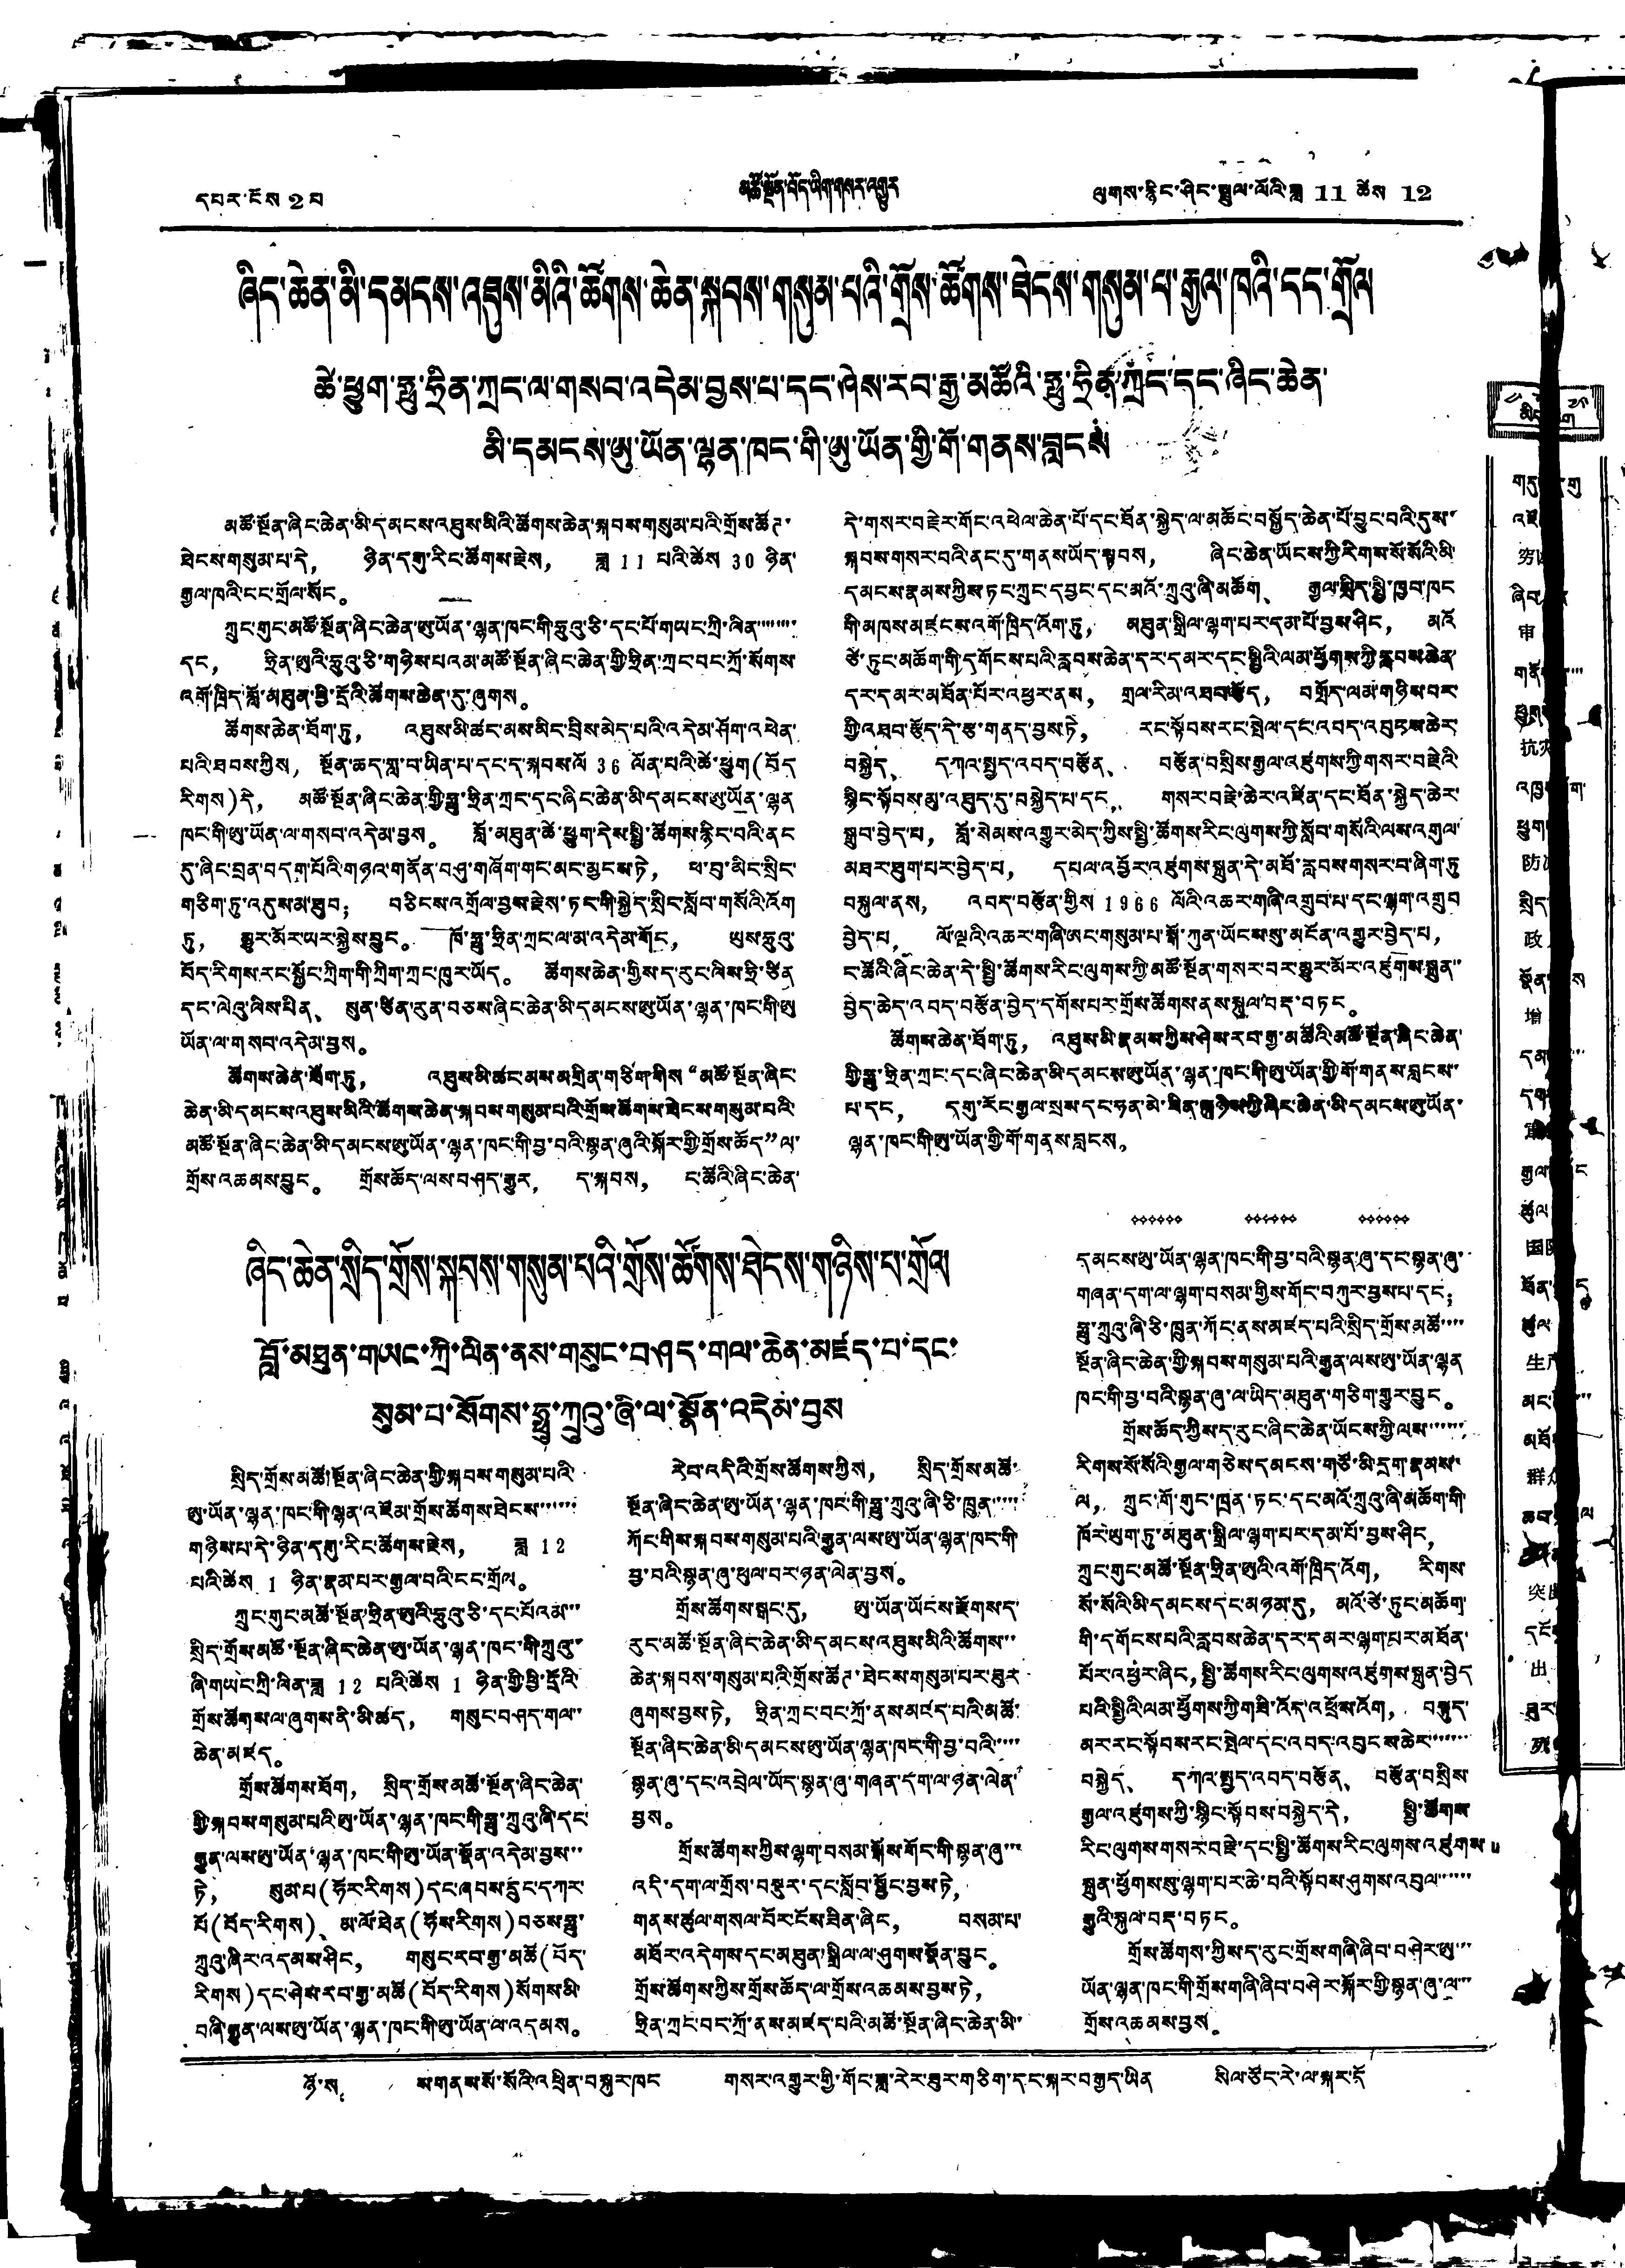དཔར་ངོས 2 པ མཚོ་སྔོན་བོད་ཡིག་གསར་འགྱུར ལུགས་རྙིང་ཤིང་སྦྲུལ་ལོའི་ཟླ 11 ཚེས 12
ཞིང་ཆེན་མི་དམངས་འཐུས་མིའི་ཚོགས་ཆེན་སྐབས་གསུམ་པའི་གྲོས་ཚོགས་ཐེངས་གསུམ་པ་རྒྱལ་ཁའི་ངང་གྲོལ
ཚེ་ཕྱུག་ཧྥུ་ཧྲིན་ཀྲང་ལ་གསབ་འདེམ་བྱས་པ་དང་ཞེས་རབ་རྒྱ་མཚོའི་ཧྥུ་ཧྲིན་ཀྲང་དང་ཞིང་ཆེན་
མི་དམངས་ཨུ་ཡོན་ལྷན་ཁང་གི་ཨུ་ཡོན་གྱི་གོ་གནས་བླངས
མཚོ་སྔོན་ཞིང་ཆེན་མི་དམངས་འཐུས་མིའི་ཚོགས་ཆེན་སྐབས་གསུམ་པའི་གྲོས་ཚོཊ་
ཐེངས་གསུམ་པ་དེ， ཉིན་དགུ་རིང་ཚོགས་རྗེས， ཟླ 11 པའི་ཚེས 30 ཉིན་
རྒྱལ་ཁའི་ངང་གྲོལ་སོང。
ཀྲུང་གུང་མཚོ་སྔོན་ཞིང་ཆེན་ཨུ་ཡོན་ལྷན་ཁང་གི་ཧྲུའུ་ཅི་དང་པོ་གཡང་ཀྲི་ལིན་་་་་་་་
དང， ཧྲིན་ཨུའི་ཧྲུའུ་ཅི་གཉིས་པའམ་མཚོ་སྔོན་ཞིང་ཆེན་གྱི་ཧྲིན་ཀྲང་བང་ཀྲོ་སོགས་
འགོ་ཁྲིད་བློ་མཐུན་ཕྱི་དྲོའི་ཚོགས་ཆེན་རུ་ཞུགས。
ཚོགས་ཆེན་ཐོག་ཏུ， འཐུས་མི་ཚང་མས་མིང་བྲིས་མེད་པའི་འདེམ་ཤོག་འཕེན་
པའི་ཐབས་ཀྱིས， སྔོན་ཆད་གླ་བ་ཡིན་པ་དང་ད་སྐབས་ལོ 36 ལོན་པའི་ཚེ་ཕྱུག （བོད
རིགས）དེ， མཚོ་སྔོན་ཞིང་ཆེན་གྱི་ཧྥུ་ཧྲིན་ཀྲང་དང་ཞིང་ཆེན་མི་དམངས་ཨུ་ཡོན་ལྷན
ཁང་གི་ཨུ་ཡོན་ལ་གསབ་འདེམ་བྱས。 བློ་མཐུན་ཚེ་ཕྱུག་དེས་སྤྱི་ཚོགས་རྙིང་བའི་ནང
དུ་ཞིང་བྲན་བདག་པོའི་གཉའ་གནོན་བཤུ་གཞོག་གང་མང་མྱངས་ཏེ， ཕ་བུ་མིང་སྲིང་
གཅིག་ཏུ་འདུས་མ་ཐུབ； བཅིངས་འགྲོལ་བྱས་རྗེས་ཏང་གི་སྐྱེད་སྲིང་སློབ་གསོའི་འོག
ཏུ， མྱུར་མོར་ཡར་སྐྱེས་བྱུང。 ཁོ་ཧྥུ་ཧྲིན་ཀྲང་ལ་མ་འདེམ་གོང， ཡུས་ཧྲུའུ་
བོད་རིགས་རང་སྐྱོང་ཀྲིག་གི་ཀྲིག་ཀྲང་ཁུར་ཡོད。 ཚོགས་ཆེན་གྱིས་ད་རུང་ལིས་ཧྲི་ཙིན
དང་ལེའུ་ལིས་པིན、 སུན་ཙིན་རུན་བཅས་ཞིང་ཆེན་མི་དམངས་ཨུ་ཡོན་ལྷན་ཁང་གི་ཨུ་
ཡོན་ལ་གསབ་འདེམ་བྱས。
ཚོགས་ཆེན་ཐོག་ཏུ， འཐུས་མི་ཚང་མས་མགྲིན་གཅིག་གིས་“མཚོ་སྔོན་ཞིང་
ཆེན་མི་དམངས་འཐུས་མིའི་ཚོགས་ཆེན་སྐབས་གསུམ་པའི་གྲོས་ཚོགས་ཐེངས་གསུམ་པའི་
མཚོ་སྔོན་ཞིང་ཆེན་མི་དམངས་ཨུ་ཡོན་ལྷན་ཁང་གི་བྱ་བའི་སྙན་ཞུའི་སྐོར་གྱི་གྲོས་ཆོད”ལ་
གྲོས་འཆམས་བྱུང。 གྲོས་ཆོད་ལས་བཤད་རྒྱུར， ད་སྐབས， ང་ཚོའི་ཞིང་ཆེན་
དེ་གསར་བརྗེར་གོང་འཕེལ་ཆེན་པོ་དང་ཐོན་སྐྱེད་ལ་མཆོང་བསྐྱོད་ཆེན་པོ་བྱུང་བའི་དུས་
སྐབས་གསར་བའི་ནང་དུ་གནས་ཡོད་སྟབས， ཞིང་ཆེན་ཡོངས་ཀྱི་རིགས་སོ་སོའི་མི་
དམངས་རྣམས་ཀྱིས ཏང་ཀྲུང་དབྱང་དང་མའོ་ཀྲུའུ་ཞི་མཆོག、 རྒྱལ་སྲིད་སྤྱི་ཁྱབ་ཁང
གི་མཁས་མཛངས་འགོ་ཁྲིད་འོག་ཏུ， མཐུན་སྒྲིལ་ལྷག་པར་དམ་པོ་བྱས་ཤིང， མའོ་
ཙེ་ཏུང་མཆོག་གི་དགོངས་པའི་རླབས་ཆེན་དར་དམར་དང་སྤྱིའི་ལམ་ཕྱོགས་ཀྱི་རླབས་ཆེན་
དར་དམར་མཐོན་པོར་འཕྱར་ནས， གྲལ་རིམ་འཐབ་རྩོད， བགྲོད་ལམ་གཉིས་པར་
གྱི་འཐབ་རྩོད་དེ་རྩ་གནད་བྱས་ཏེ， རང་སྟོབས་རང་སྤེལ་དང་འབད་འབུངས་ཆེར་
བསྐྱེད、 དཀའ་སྤྱད་འབད་བརྩོན、 བརྩོན་བསྲིས་རྒྱལ་འཛུགས་ཀྱི་གསར་བརྗེའི་
སྙིང་སྟོབས་མུ་འཐུད་དུ་བསྐྱེད་པ་དང， གསར་བརྗེ་ཆེར་འཛིན་དང་ཐོན་སྐྱེད་ཆེར་
སྒྲུབ་བྱེད་པ， བློ་སེམས་འགྱུར་མེད་ཀྱིས་སྤྱི་ཚོགས་རིང་ལུགས་ཀྱི་སློབ་གསོའི་ལས་འགུལ་
མཐར་ཐུག་པར་བྱེད་པ， དཔལ་འབྱོར་འཛུགས་སྐྲུན་དེ་མཐོ་རླབས་གསར་བ་ཞིག་ཏུ་
བསྐུལ་ནས， འབད་བརྩོན་གྱིས 1966 ལོའི་འཆར་གཞི་འགྲུབ་པ་དང་ལྷག་འགྲུབ
བྱེད་པ， ལོ་ལྔའི་འཆར་གཞི་ཨང་གསུམ་པ་སྒོ་ཀུན་ཡོངས་སུ་མངོན་འགྱུར་བྱེད་པ，
ང་ཚོའི་ཞིང་ཆེན་དེ་སྤྱི་ཚོགས་རིང་ལུགས་ཀྱི་མཚོ་སྔོན་གསར་བར་མྱུར་མོར་འཛུགས་སྐྲུན་་
བྱེད་ཆེད་འབད་བརྩོན་བྱེད་དགོས་པར་གྲོས་ཚོགས་ནས་སྐུལ་བརྡ་བཏང。
ཚོགས་ཆེན་ཐོག་ཏུ， འཐུས་མི་རྣམས་ཀྱིས་ཤེས་རབ་རྒྱ་མཚོའི་མཚོ་སྔོན་ཞིང་ཆེན་
གྱི་ཧྥུ་ཧྲིན་ཀྲང་དང་ཞིང་ཆེན་མི་དམངས་ཨུ་ཡོན་ལྷན་ཁང་གི་ཨུ་ཡོན་གྱི་གོ་གནས་བླངས་་
པ་དང， དགུ་རོང་རྒྱལ་སྲས་དང་ཧན་མེ་ཟིན་ཁཉིས་ཀྱི་ཞིང་ཆེན་མི་དམངས་ཨུ་ཡོན་
ལྷན་ཁང་གི་ཨུ་ཡོན་གྱི་གོ་གནས་བླངས。
ཞིང་ཆེན་སྲིད་གྲོས་སྐབས་གསུམ་པའི་གྲོས་ཚོགས་ཐེངས་གཉིས་པ་གྲོལ་
བློ་མཐུན་གཡང་ཀྲི་ལིན་ནས་གསུང་བཤད་གལ་ཆེན་མཛད་པ་དང་
སུམ་པ་སོགས་ཧྥུ་ཀྲུའུ་ཞི་ལ་སྣོན་འདེམ་བྱས
སྲིད་གྲོས་མཚོ་སྔོན་ཞིང་ཆེན་གྱི་སྐབས་གསུམ་པའི་
ཨུ་ཡོན་ལྷན་ཁང་གི་ལྷན་འཛོམ་གྲོས་ཚོགས་ཐེངས་་་་་་
གཉིས་པ་དེ་ཉིན་དགུ་རིང་ཚོགས་རྗེས， ཟླ 12
པའི་ཚེས 1 ཉིན་རྣམ་པར་རྒྱལ་བའི་ངང་གྲོལ。
ཀྲུང་གུང་མཚོ་སྔོན་ཧྲིན་ཨུའི་ཧྲུའུ་ཅི་དང་པོའམ་་་
སྲིད་གྲོས་མཚོ་སྔོན་ཞིང་ཆེན་ཨུ་ཡོན་ལྷན་ཁང་གི་ཀྲུའུ་
ཞི་གཡང་ཀྲི་ལིན་ཟླ 12 པའི་ཚེས 1 ཉིན་གྱི་ཕྱི་དྲོའི་
གྲོས་ཚོགས་ལ་ཞུགས་ནི་མི་ཚད， གསུང་བཤད་གལ་་
ཆེན་མཛད。
གྲོས་ཚོགས་ཐོག， སྲིད་གྲོས་མཚོ་སྔོན་ཞིང་ཆེན་
གྱི་སྐབས་གསུམ་པའི་ཨུ་ཡོན་ལྷན་ཁང་གི་ཧྥུ་ཀྲུའུ་ཞི་དང་
རྒྱུན་ལས་ཨུ་ཡོན་ལྷན་ཁང་གི་ཨུ་ཡོན་སྣོན་འདེམ་བྱས་་་
ཏེ， སུམ་པ (ཧོར་རིགས) དང་ཞབས་དྲུང་དཀར་
པོ (བོད་རིགས)、 མ་ལོ་ཐེན (ཧོས་རིགས) བཅས་ཧྥུ་
ཀྲུའུ་ཞིར་འདམས་ཤིང， གསུང་རབ་རྒྱ་མཚོ (བོད་
རིགས)དང་ཤེས་རབ་རྒྱ་མཚོ (བོད་རིགས) སོགས་མི་
བཞི་རྒྱུན་ལས་ཨུ་ཡོན་ལྷན་ཁང་གི་ཨུ་ཡོན་ལ་འདམས。
རེབ་འདིའི་གྲོས་ཚོགས་ཀྱིས， སྲིད་གྲོས་མཚོ་
སྔོན་ཞིང་ཆེན་ཨུ་ཡོན་ལྷན་ཁང་གི་ཧྥུ་ཀྲུའུ་ཞི་ཅི་ཁྲུན་་་་་་
ཀོང་གིས་སྐབས་གསུམ་པའི་རྒྱུན་ལས་ཨུ་ཡོན་ལྷན་ཁང་གི་
བྱ་བའི་སྙན་ཞུ་ཕུལ་བར་ཉན་ལེན་བྱས。
གྲོས་ཚོགས་སྒང་དུ， ཨུ་ཡོན་ཡོངས་རྫོགས་ད་
རུང་མཚོ་སྔོན་ཞིང་ཆེན་མི་དམངས་འཐུས་མིའི་ཚོགས་་་
ཆེན་སྐབས་གསུམ་པའི་གྲོས་ཚོཊ་ཐེངས་གསུམ་པར་ཟུར
ཞུགས་བྱས་ཏེ， ཧྲིན་ཀྲང་བང་ཀྲོ་ནས་མཛད་པའི་མཚོ་
སྔོན་ཞིང་ཆེན་མི་དམངས་ཨུ་ཡོན་ལྷན་ཁང་གི་བྱ་བའི་་་་་
སྙན་ཞུ་དང་འབྲེལ་ཡོད་སྙན་ཞུ་གཞན་དག་ལ་ཉན་ལེན་
བྱས。
གྲོས་ཚོགས་ཀྱིས་ལྷག་བསམ་སྒོས་གོང་གི་སྙན་ཞུ་་་
འདི་དག་ལ་གྲོས་བསྡུར་དང་སློབ་སྦྱོང་བྱས་ཏེ，
གནས་ཚུལ་གསལ་པོར་ངོས་ཟིན་ཞིང， བསམ་པ་
མཐོར་འདེགས་དང་མཐུན་སྒྲིལ་ལ་ཤུགས་སྣོན་བྱུང。
གྲོས་ཚོགས་ཀྱིས་གྲོས་ཆོད་ལ་གྲོས་འཆམས་བྱས་ཏེ，
ཧྲིན་ཀྲང་བང་ཀྲོ་ནས་མཛད་པའི་མཚོ་སྔོན་ཞིང་ཆེན་མི་་
དམངས་ཨུ་ཡོན་ལྷན་ཁང་གི་བྱ་བའི་སྙན་ཞུ་དང་སྙན་ཞུ་
གཞན་དག་ལ་ལྷག་བསམ་གྱིས་གོང་བཀུར་བྱས་པ་དང；
ཧྥུ་ཀྲུའུ་ཞི་ཅི་ཁྲུན་ཀོང་ནས་མཛད་པའི་སྲིད་གྲོས་མཚོ་་་་་
སྔོན་ཞིང་ཆེན་གྱི་སྐབས་གསུམ་པའི་རྒྱུན་ལས་ཨུ་ཡོན་ལྷན
ཁང་གི་བྱ་བའི་སྙན་ཞུ་ལ་ཡིད་མཐུན་གཅིག་གྱུར་བྱུང。
གྲོས་ཆོད་ཀྱིས་ད་རུང་ཞིང་ཆེན་ཡོངས་ཀྱི་ལས་་་་་་་
རིགས་སོ་སོའི་རྒྱལ་གཅེས་དམངས་གཙོ་མི་དྲག་རྣམས་
ལ， ཀྲུང་གོ་གུང་ཁྲན་ཏང་དང་མའོ་ཀྲུའུ་ཞི་མཆོག་གི་
ཁོར་ཡུག་ཏུ་མཐུན་སྒྲིལ་ལྷག་པར་དམ་པོ་བྱས་ཤིང，
ཀྲུང་གུང་མཚོ་སྔོན་ཧྲིན་ཨུའི་འགོ་ཁྲིད་འོག， རིགས་
སོ་སོའི་མི་དམངས་དང་མཉམ་དུ， མའོ་ཙེ་ཏུང་མཆོག་
གི་དགོངས་པའི་རླབས་ཆེན་དར་དམར་ལྷག་པར་མཐོན་
པོར་འཕྱར་ཞིང， སྤྱི་ཚོགས་རིང་ལུགས་འཛུགས་སྐྲུན་བྱེད
པའི་སྤྱིའི་ལམ་ཕྱོགས་ཀྱི་གཟི་འོད་འཕྲོས་འོག， བསྟུད་
མར་རང་སྟོབས་རང་སྤེལ་དང་འབད་འབུངས་ཆེར་་་་་་་་
བསྐྱེད、 དཀའ་སྤྱད་འབད་བརྩོན、 བརྩོན་བསྲིས་
རྒྱལ་འཛུགས་ཀྱི་སྙིང་སྟོབས་བསྐྱེད་དེ， སྤྱི་ཚོགས་
རིང་ལུགས་གསར་བརྗེ་དང་སྤྱི་ཚོགས་རིང་ལུགས་འཛུགས
སྐྲུན་ཕྱོགས་སུ་ལྷག་པར་ཆེ་བའི་སྟོབས་ཤུགས་འབུལ་་་་་་
རྒྱུའི་སྐུལ་བརྡ་བཏང。
གྲོས་ཚོགས་ཀྱིས་ད་རུང་གྲོས་གཞི་ཞིབ་བཤེར་ཨུ་་་་
ཡོན་ལྷན་ཁང་གི་གྲོས་གཞི་ཞིབ་བཤེར་སྐོར་གྱི་སྙན་ཞུ་ལ་་་
གྲོས་འཆམས་བྱས。
ཉོ་ས ས་གནས་སོ་སོའི་འཕྲིན་བསྐུར་ཁང གསར་འགྱུར་གྱི་གོང་ཟླ་རེར་ཟུར་གཅིག་དང་སྐར་བརྒྱད་ཡིན སིལ་ཙོང་རེ་ལ་སྐར་དོ་
མིད ག
གདུ གུ
འཛོ
穷
ཞིབ
审
གནོ་་་
ཕྱག
抗灾
འཁྱ  ག་
ཕྱུག
防凍
སྲིད
政府
སྣོན་ ས་
增
དམ ་་་
དག
第
རྒྱལ ང
ཚུལ
国際
ཐོན་སྐྱད
ཚུལ
生产
མང་ ར་་
མཐོ
群
ཆབ་ ལ
突出
དངོས
出
ཟུར
死
